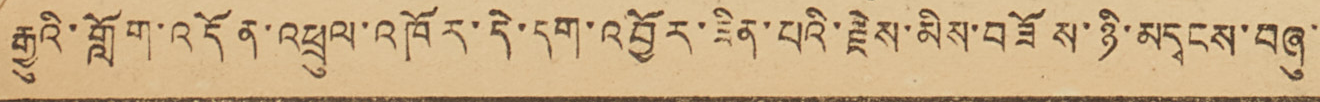རྒྱུའི་གློག་འདོན་འཕྲུལ་འཁོར་དེ་དག་འབྱོར་ཟིན་པའི་རྗེས་མིས་བཟོས་ཉི་མདངས་བཞུ་་་་་
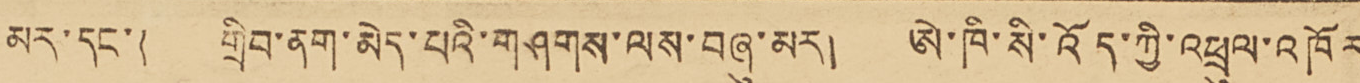མར་དང་། གྲིབ་ནག་མེད་པའི་གཤགས་ལས་བཞུ་མར། ཨེ་ཁི་སི་འོད་ཀྱི་འཕྲུལ་འཁོར་
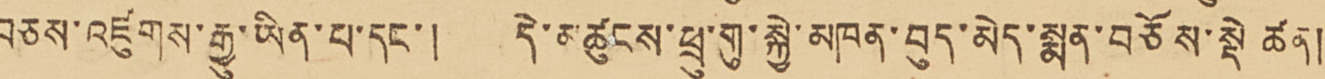བཅས་འཛུགས་རྒྱུ་ཡིན་པ་དང་། དེ་མཚུངས་ཕྲུ་གུ་སྐྱེ་མཁན་བུད་མེད་སྨན་བཅོས་སྡེ་ཚན།
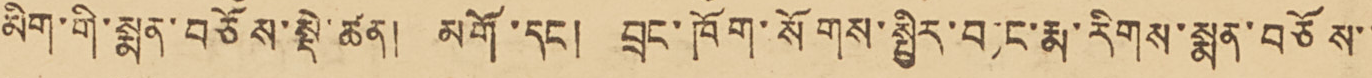མིག་གི་སྨན་བཅོས་སྡེ་ཚན། མགོ་དང་། བྲང་ཁོག་སོགས་སྤྱིར་བཏང་རྨ་རིགས་སྨན་བཅོས་་
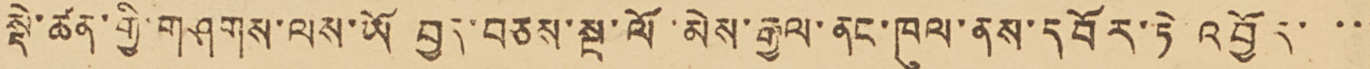སྡེ་ཚན་གྱི་གཤགས་ལས་ཡོ བྱད་བཅས་སྔ་ལོ་མེས་རྒྱལ་ནང་ཁུལ་ནས་དབོར་ཏེ འབྱོར་་་་
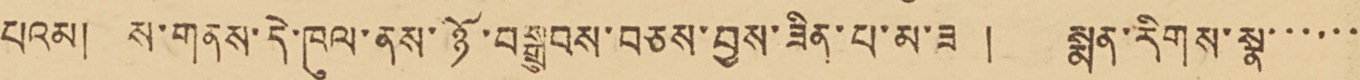པའམ། ས་གནས་དེ་ཁུལ་ནས་ཉོ་བསྒྲུབས་བཅས་བྱས་ཟིན་པ་མ་ཟད ། སྨན་རིགས་སྣ་་་་་་་
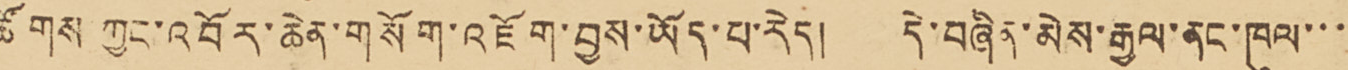ཚོགས ཀྱང་འབོར་ཆེན་གསོག་འཇོག་བྱས་ཡོད་པ་རེད། དེ་བཞིན་མེས་རྒྱལ་ནང་ཁུལ་་་་
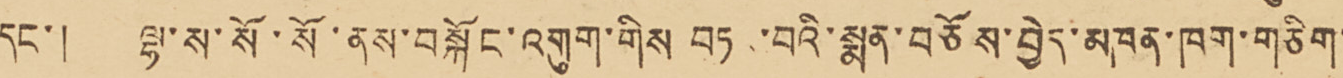དང་། ལྷ་ས་སོ་སོ་ནས་བསྐོང་འགུག་གིས བཏང་བའི་སྨན་བཅོས་བྱེད་མཁན་ཁག་གཅིག་་
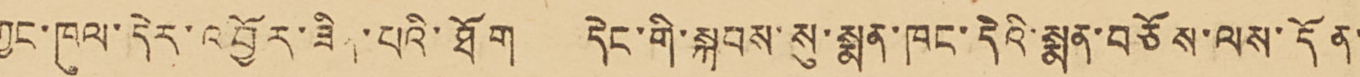ཀྱང་ཁུལ་དེར་འབྱོར་ཟིན་པའི་ཐོག དེང་གི་སྐབས་སུ་སྨན་ཁང་དེའི་སྨན་བཅོས་ལས་དོན་
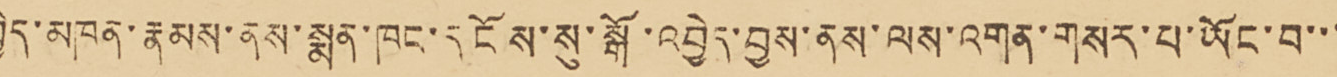བྱེད་མཁན་རྣམས་ནས་སྨན་ཁང་དངོས་སུ་སྒོ་འབྱེད་བྱས་ནས་ལས་འགན་གསར་པ་ཡོང་བ་་་་
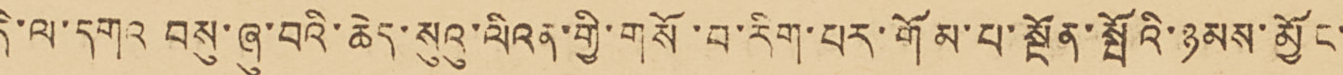དེ་ལ་དགའ བསུ་ཞུ་བའི་ཆེད་སུའུ་ལིའན་གྱི་གསོ་བ་རིག་པར་གོམ་པ་སྔོན་སྤོའི་ཉམས་མྱོང་་
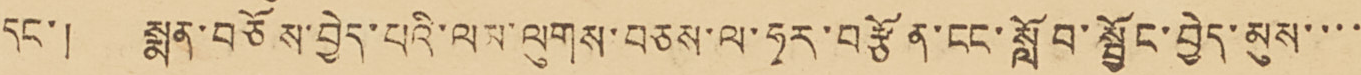དང་། སྨན་བཅོས་བྱེད་པའི་ལས་ལུགས་བཅས་ལ་ཧྭར་བརྩོན་ངང་སློབ་སྦྱོང་བྱེད་མུས་་་་་
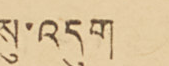སུ་འདུག།།
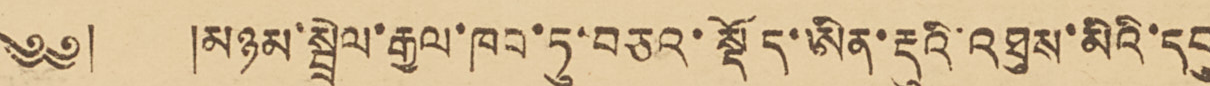༄༅། །་མཉམ་སྦྲེལ་རྒྱལ་ཁབ་ཏུ་བཅའ་སྡོད་ཨིན་རྡུའི་འཐུས་མིའི་དབུ་
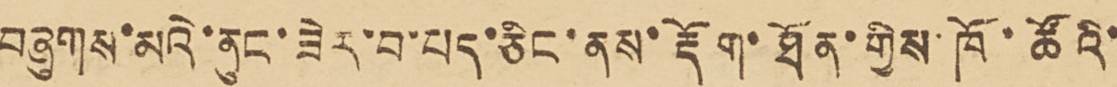བཞུགས་མའེ་ནུང་ཟེར་བ་པད་ཅིང་ནས་རྡོག་ཐོན་གྱིས་ཁོ་ཚོའི་
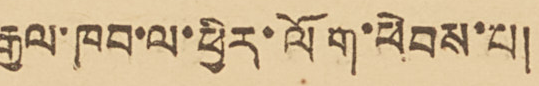རྒྱལ་ཁབ་ལ་ཕྱིར་ལོག་ཕེབས་པ།
